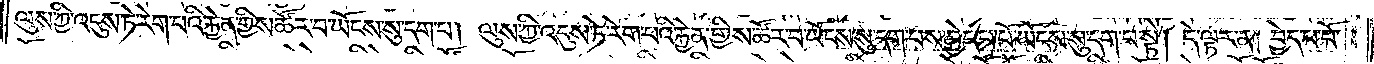ལུས་ཀྱི་འདུས་ཏེ་རེག་པའི་རྐྱེན་གྱིས་ཚོར་བ་ཡོངས་སུ་དག་པ། ལུས་ཀྱི་འདུས་ཏེ་རེག་པའི་རྐྱེན་གྱིས་ཚོར་བ་ཡོངས་སུ་དག་པས་བྱེད་པ་པོ་ཡོངས་སུ་དག་པ་སྟེ། དེ་ལྟར་ན། བྱེད་པ་པོ་
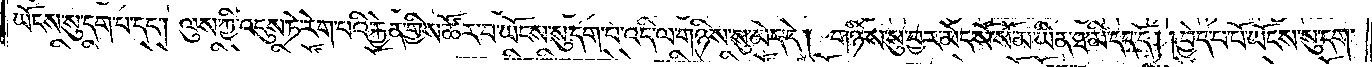ཡོངས་སུ་དག་པ་དང༌། ལུས་ཀྱི་འདུས་ཏེ་རེག་པའི་རྐྱེན་གྱིས་ཚོར་བ་ཡོངས་སུ་དག་པ་འདི་ལ་གཉིས་སུ་མེད་དེ། གཉིས་སུ་བྱར་མེད་སོ་སོ་མ་ཡིན་ཐ་མི་དད་དོ། །བྱེད་པ་པོ་ཡོངས་སུ་དག་
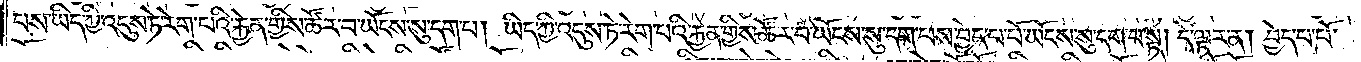པས་ཡིད་ཀྱི་འདུས་ཏེ་རེག་པའི་རྐྱེན་གྱིས་ཚོར་བ་ཡོངས་སུ་དག་པ། ཡིད་ཀྱི་འདུས་ཏེ་རེག་པའི་རྐྱེན་གྱིས་ཚོར་བ་ཡོངས་སུ་དག་པས་བྱེད་པ་པོ་ཡོངས་སུ་དག་པ་སྟེ། དེ་ལྟར་ན། བྱེད་པ་པོ་
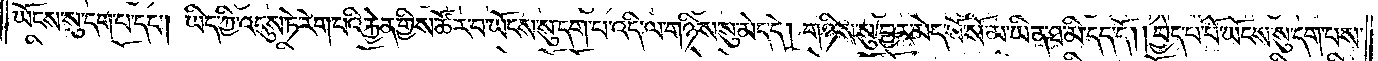ཡོངས་སུ་དག་པ་དང༌། ཡིད་ཀྱི་འདུས་ཏེ་རེག་པའི་རྐྱེན་གྱིས་ཚོར་བ་ཡོངས་སུ་དག་པ་འདི་ལ་གཉིས་སུ་མེད་དེ། གཉིས་སུ་བྱར་མེད་སོ་སོ་མ་ཡིན་ཐ་མི་དད་དོ། །བྱེད་པ་པོ་ཡོངས་སུ་དག་པས་
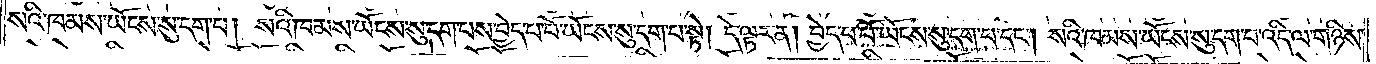སའི་ཁམས་ཡོངས་སུ་དག་པ། སའི་ཁམས་ཡོངས་སུ་དག་པས་བྱེད་པ་པོ་ཡོངས་སུ་དག་པ་སྟེ། དེ་ལྟར་ན། བྱེད་པ་པོ་ཡོངས་སུ་དག་པ་དང༌། སའི་ཁམས་ཡོངས་སུ་དག་པ་འདི་ལ་གཉིས་
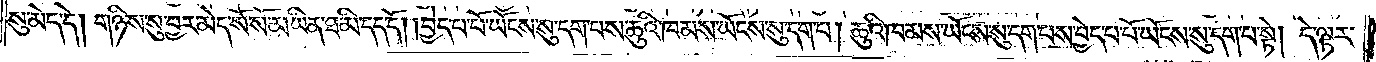སུ་མེད་དེ། གཉིས་སུ་བྱར་མེད་སོ་སོ་མ་ཡིན་ཐ་མི་དད་དོ། །བྱེད་པ་པོ་ཡོངས་སུ་དག་པས་ཆུའི་ཁམས་ཡོངས་སུ་དག་པ། ཆུའི་ཁམས་ཡོངས་སུ་དག་པས་བྱེད་པ་པོ་ཡོངས་སུ་དག་པ་སྟེ། དེ་ལྟར་
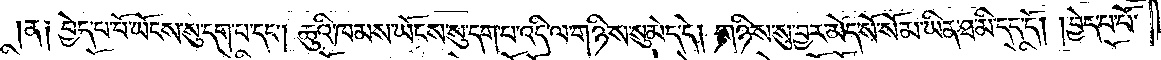ན༑ བྱེད་པ་པོ་ཡོངས་སུ་དག་པ་དང༌། ཆུའི་ཁམས་ཡོངས་སུ་དག་པ་འདི་ལ་གཉིས་སུ་མེད་དེ། གཉིས་སུ་བྱར་མེད་སོ་སོ་མ་ཡིན་ཐ་མི་དད་དོ། །བྱེད་པ་པོ་
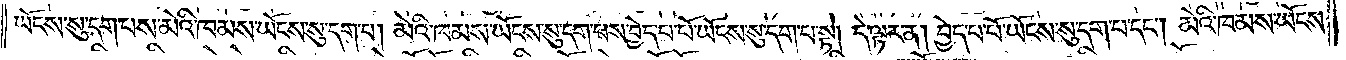ཡོངས་སུ་དག་པས་མེའི་ཁམས་ཡོངས་སུ་དག་པ། མེའི་ཁམས་ཡོངས་སུ་དག་པས་བྱེད་པ་པོ་ཡོངས་སུ་དག་པ་སྟེ། དེ་ལྟར་ན། བྱེད་པ་པོ་ཡོངས་སུ་དག་པ་དང༌། མེའི་ཁམས་ཡོངས་
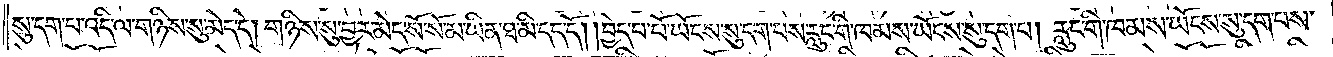སུ་དག་པ་འདི་ལ་གཉིས་སུ་མེད་དེ། གཉིས་སུ་བྱར་མེད་སོ་སོ་མ་ཡིན་ཐ་མི་དད་དོ། །བྱེད་པ་པོ་ཡོངས་སུ་དག་པས་རླུང་གི་ཁམས་ཡོངས་སུ་དག་པ། རླུང་གི་ཁམས་ཡོངས་སུ་དག་པས་
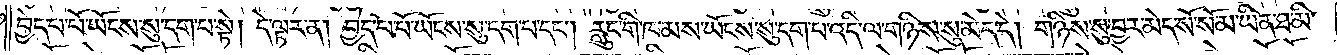བྱེད་པ་པོ་ཡོངས་སུ་དག་པ་སྟེ། དེ་ལྟར་ན། བྱེད་པ་པོ་ཡོངས་སུ་དག་པ་དང༌། རླུང་གི་ཁམས་ཡོངས་སུ་དག་པ་འདི་ལ་གཉིས་སུ་མེད་དེ། གཉིས་སུ་བྱར་མེད་སོ་སོ་མ་ཡིན་ཐ་མི་
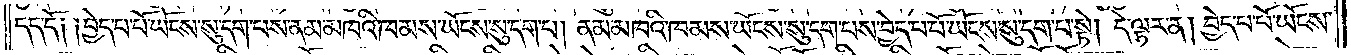དད་དོ༑ ༑བྱེད་པ་པོ་ཡོངས་སུ་དག་པས་ནམ་མཁའི་ཁམས་ཡོངས་སུ་དག་པ། ནམ་མཁའི་ཁམས་ཡོངས་སུ་དག་པས་བྱེད་པ་པོ་ཡོངས་སུ་དག་པ་སྟེ། དེ་ལྟར་ན། བྱེད་པ་པོ་ཡོངས་
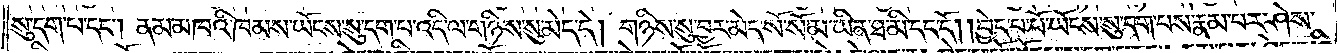སུ་དག་པ་དང༌། ནམ་མཁའི་ཁམས་ཡོངས་སུ་དག་པ་འདི་ལ་གཉིས་སུ་མེད་དེ། གཉིས་སུ་བྱར་མེད་སོ་སོ་མ་ཡིན་ཐ་མི་དད་དོ། །བྱེད་པ་པོ་ཡོངས་སུ་དག་པས་རྣམ་པར་ཤེས་
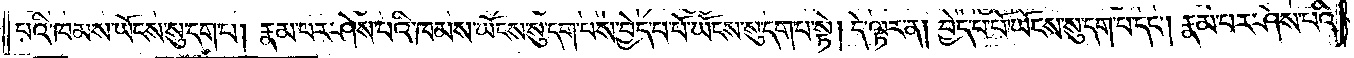པའི་ཁམས་ཡོངས་སུ་དག་པ། རྣམ་པར་ཤེས་པའི་ཁམས་ཡོངས་སུ་དག་པས་བྱེད་པ་པོ་ཡོངས་སུ་དག་པ་སྟེ། དེ་ལྟར་ན། བྱེད་པ་པོ་ཡོངས་སུ་དག་པ་དང༌། རྣམ་པར་ཤེས་པའི་
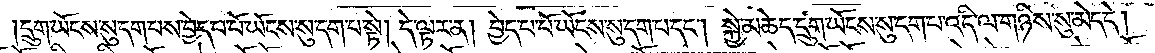དྲུག་ཡོངས་སུ་དག་པས་བྱེད་པ་པོ་ཡོངས་སུ་དག་པ་སྟེ། དེ་ལྟར་ན། བྱེད་པ་པོ་ཡོངས་སུ་དག་པ་དང༌། སྐྱེ་མཆེད་དྲུག་ཡོངས་སུ་དག་པ་འདི་ལ་གཉིས་སུ་མེད་དེ།
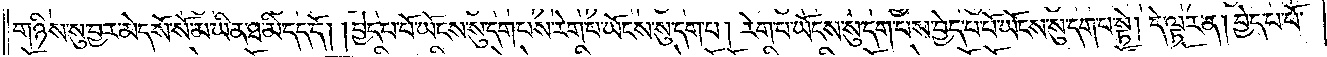གཉིས་སུ་བྱར་མེད་སོ་སོ་མ་ཡིན་ཐ་མི་དད་དོ། །བྱེད་པ་པོ་ཡོངས་སུ་དག་པས་རེག་པ་ཡོངས་སུ་དག་པ། རེག་པ་ཡོངས་སུ་དག་པས་བྱེད་པ་པོ་ཡོངས་སུ་དག་པ་སྟེ། དེ་ལྟར་ན། བྱེད་པ་པོ་
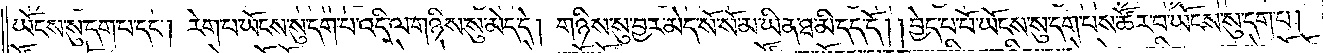ཡོངས་སུ་དག་པ་དང༌། རེག་པ་ཡོངས་སུ་དག་པ་འདི་ལ་གཉིས་སུ་མེད་དེ། གཉིས་སུ་བྱར་མེད་སོ་སོ་མ་ཡིན་ཐ་མི་དད་དོ། །བྱེད་པ་པོ་ཡོངས་སུ་དག་པས་ཚོར་བ་ཡོངས་སུ་དག་པ།
